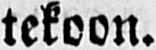tekoon.
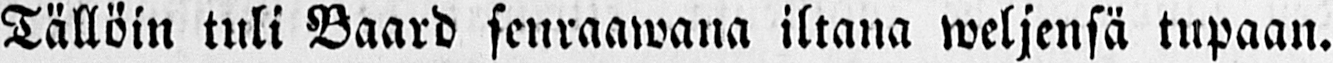Tällöin tuli Baard seuraawana iltana weljensä tupaan.
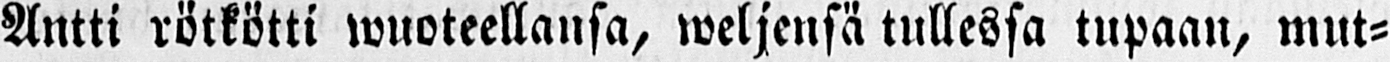Antti rötkötti wuoteellansa, weljensä tullessa tupaan, mut-
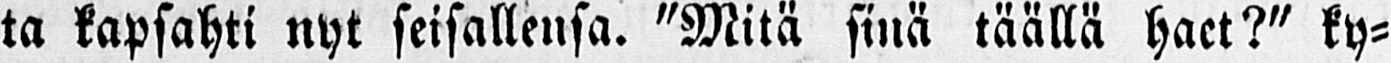ta kapsahti nyt seisallensa. "Mitä sinä täällä haet?" ky-
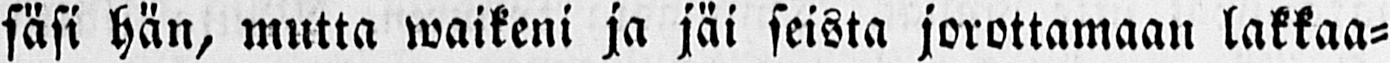säsi hän, mutta waikeni ja jäi seista jorottamaan lakkaa-
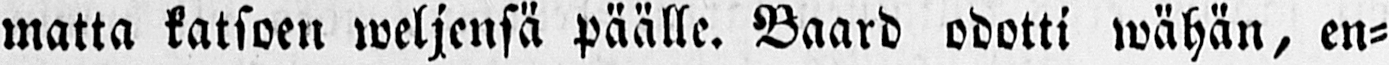matta katsoen weljensä päälle. Baard odotti wähän, en-
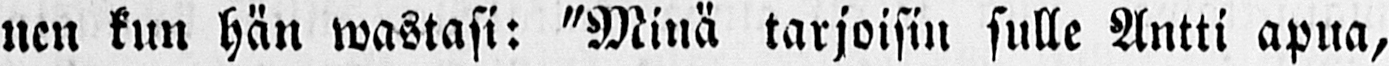nen kun hän wastasi: "Minä tarjoisin sulle Antti apua,
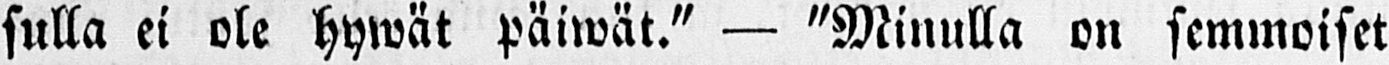sulla ei ole hywät päiwät." — "Minulla on semmoiset
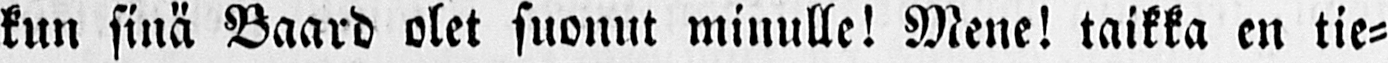kun sinä Baard olet suonut minulle! Mene! taikka en tie-
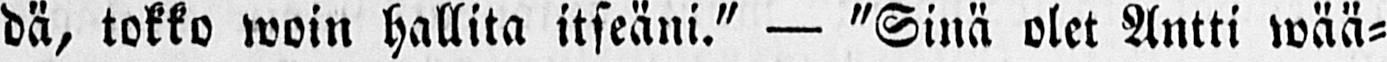dä, tokko woin hallita itseäni." — "Sinä olet Antti wää-
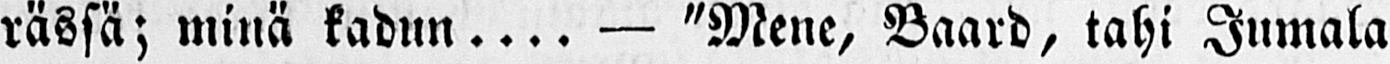rässä; minä kadun.... — "Mene, Baard, tahi Jumala
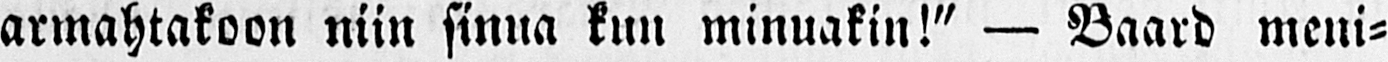armahtakoon niin sinua kuu minuakin!" — Baard meni-
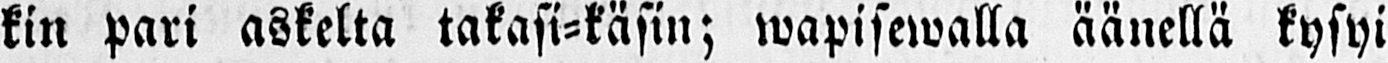kin pari askelta takasi-käsin; wapisewalla äänellä kysyi
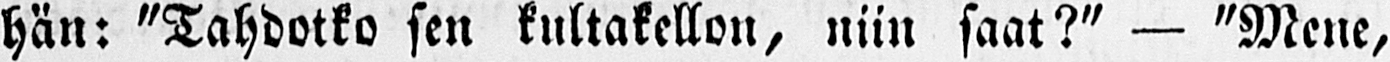hän: "Tahdotko sen kultakellon, niin saat?" — "Mene,
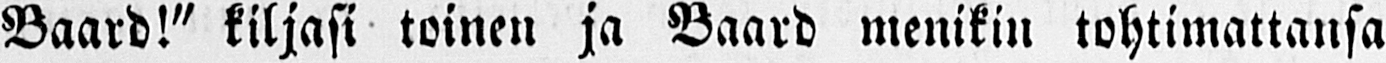Baard!" kiljasi toinen ja Baard menikin tohtimattansa
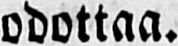odottaa.
